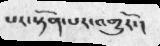པར་སྟོན་པར་འགྱུརོ་།
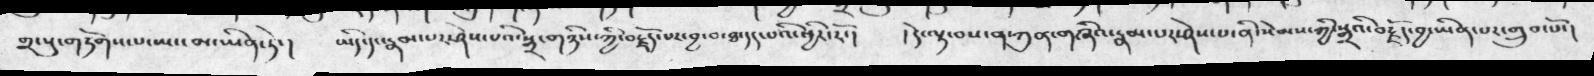༢་སུ་གཏོགས་པ་ཡང་མ་ཡིན་ཏེ་།  ཡིད་དང་རྣམ་པར་ཤེས་པའི་སྒྲ་གཉིས་ཀྱི་བརྗོད་པར་བྱ་བ་ཐ་དད་པའི་ཕྱིར་རོ་།  ། དེ་ལྟ་བས་ན་ཀུན་གཞིའ་རྣམ་པར་ཤེས་པ་ནི་སེམས་ཀྱི་སྒྲའི་བརྗོད་བྱ་ཡིན་པར་གྲུབ་པོ་།
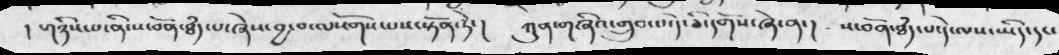། གཉིས་པ་ནི་ས་བོན་ཐཾད་པ་ཞེས་བྱ་བ་ལསོགས་པས་སྟོན་ཏེ་།  ཀུན་གཞིའ་གྲུབ་པ་དེ་ཅི་དགོས་ཞེ་ན་།   ས་བོན་ཐཾད་པ་དེ་ལས་ཡིད་དང་
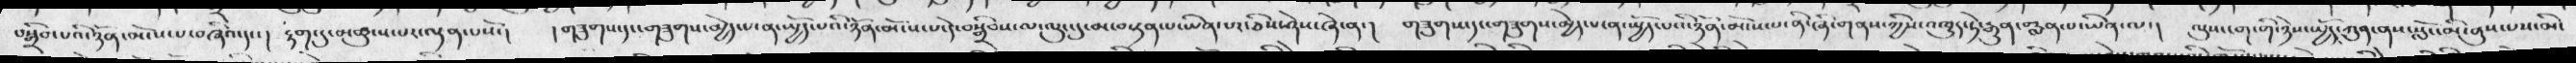བསྒྲིབ་པའི་ཉོན་མོངས་པ་བཞིའ་དང་། རྟག་དུ་མཚུངས་པར་ལྡན་པསོ་།    ། གཟུགས་དང་གཟུགས་མྱེད་པ་ན་སྤྱོད་པའི་ཉོན་མོངས་པ་དེ་བསྒྲིབས་ལ་ལུང་དུ་མ་བསྟན་པ་ཡིན་པར་ཅིས་ཤེས་ཞེ་ན་།  གཟུགས་དང་གཟུགས་མྱེད་པ་ན་སྤྱོད་པའི་ཉོན་མོངས་པ་ནི་ཞི་གནས་ཀྱིས་འཁྱུར་ཏེ་རྒུན་བརླན་པ་ཡིན་ལ་།     ལུས་ངག་གི་ཉེས་སྤྱོད་ཀུན་ནས་སློང་མི་ནུས་པས་མི་
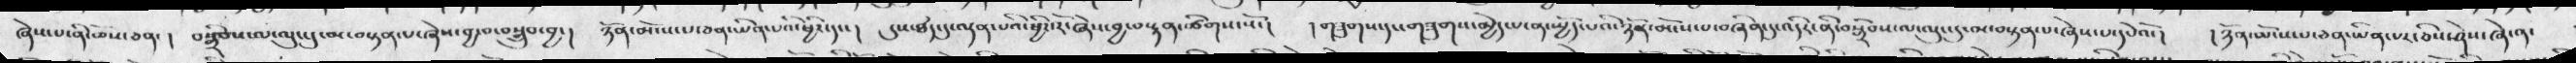ཞེས་པ་ནི་ཆོས་ཅན་ །  བསྒྲིབས་ལ་ལུང་དུ་མ་བསྟན་པ་ཞེས་བྱ་བ་བསྒྲུབ་བྱ་།  ཉོན་མོངས་པ་ཅན་ཡིན་པའི་ཕྱིར་དང་།  དུས་ཐཾད་དུ་ལྡན་པའི་ཕྱིར་རོ་ཞེས་བྱ་བ་སྙན་ཚིགས་སོ་།   ། གཟུགས་དང་གཟུགས་མྱེད་པ་ན་སྤྱོད་པའི་ཉོན་མོངས་པ་བཞིན་དུ་འདིར་ནི་བསྒྲིབས་ལ་ལུང་དུ་མ་བསྟན་པ་ཞེས་པ་དཔེའོ་།  ། ཉོན་མོངས་པ་ཅན་ཡིན་པར་ཅིས་ཤེས་ཞེ་ན་
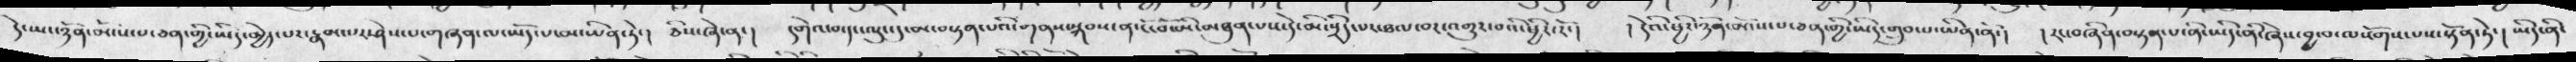དེ་ཡང་ཉོན་མོངས་པ་ཅན་གྱི་ཡིད་མྱེད་པར་རྣམ་པར་ཤེས་པ་གཞན་ལ་ཡོད་པ་མ་ཡིན་ཏེ་།  ཅིས་ཞེ་ན་།  དགེའ་བ་དང་ལུང་དུ་མ་བསྟན་པའི་གནས་སྐབས་ན་ངོ་བོ་མི་མཐུན་པས་དེ་མི་སྲིད་པར་ཐལ་བར་འགྱུར་བའི་ཕྱིར་རོ་།   ། དེའི་ཕྱིར་ཉོན་མོངས་པ་ཅན་གྱི་ཡིད་གྲུབ་པ་ཡིན་ནོ་།   ། རང་བཞིན་བསྟན་པ་ནི་ཡིད་ནི་ཞེས་བྱ་བ་ལསོགས་པས་སྟོན་ཏེ་།  ཡིད་ནི་
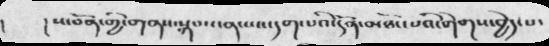། ས་བོན་གྱི་གནས་སྐབས་ན་ཡང་དག་པའི་དོན་མཐོང་པའི་གེགས་བྱེད་པ་
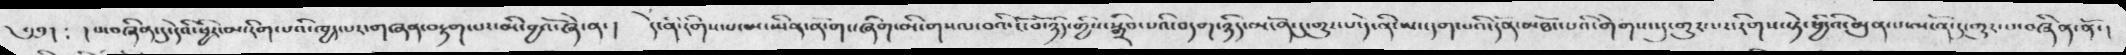༄༅།  ༴  ། པ་བཞིན་དུ་དེའི་ཕྱིར་མ་རིག་པའི་ཁྱད་པར་གཞན་བརྟག་པར་མི་བྱའོ་ཞེ་ན་ །    དེ་ནི་རིགས་པ་མ་ཡིན་ནོ་གང་ཞིག་མི་གསལ་བའི་ངོ་བོ་ཉིད་གྱིས་སྒྲིབ་པའི་བདག་ཉིད་མངོན་དུ་གྱུར་པ་དེ་ནི་ཡང་དག་པའི་དོན་མཐོང་པའི་གེགས་སུ་གྱུར་པར་རིགས་སྟེ་ཕྱི་འི་མུན་པ་མངོན་དུ་གྱུར་པ་བཞིན་ནོ་།
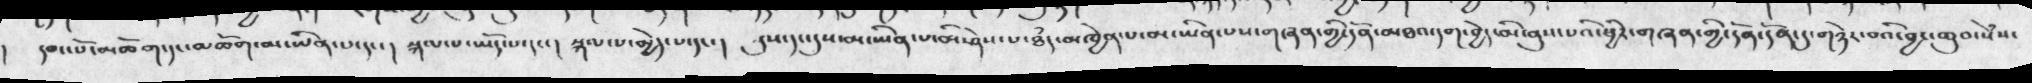། དབང་པོ་མཆོག་དང་མཆོག་མ་ཡིན་པ་དང་།  སྐལ་པ་ཡོད་པ་དང་།  སྐལ་པ་མྱེད་པ་དང་།   དུས་དང་དུས་མ་ཡིན་པ་མི་ཤེས་པ་ཐཾད་མཁྱེན་པ་མ་ཡིན་པས་གཞན་གྱི་དོན་མཐའ་དག་བྱེད་མི་ནུས་པའི་ཕྱིར་གཞན་གྱི་དོན་དོན་དུ་གཉེར་བའི་བྱང་ཆུབ་སེཾས་
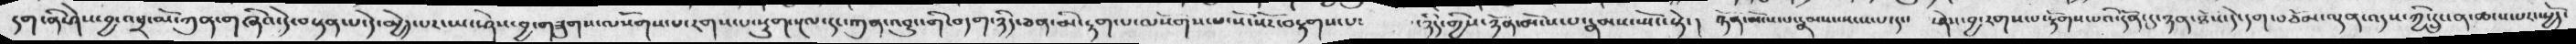དག་ནི་ཤེས་བྱ་འཕྲ་མོ་ཀུན་གཞིའ་དེ་བསྟན་པ་ད་ེམྱེད་པར་ཡང་ཤེས་བྱ་གཟུགས་ལསོགས་པ་རགས་པ་སྡུག་སྔལ་དང་ཀུན་འབྱུང་གི་བདག་ཉིད་ཅན་མི་རྟག་པ་ལསོགས་པ་སོ་སོར་བརྟགས་པ༴  ཉིད་གྱིས་ཉོན་མོངས་པ་རྣམས་སྤོང་སྟེ་།   ཉོན་མོངས་པ་རྣམས་སངས་པ་དང་།  ཤེས་བྱ་རགས་པ་རྟོགས་པའི་དོན་དུ་ཉན་ཐོས་དེ་དག་བཅོམ་ལྡན་འདས་ཀྱི་དྲུང་ན་ཚངས་པར་སྤྱོད་
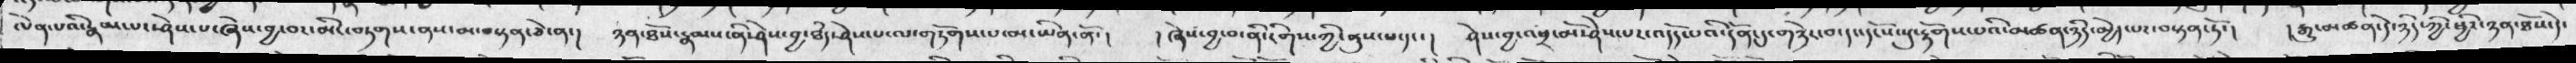ལེན་པའི་རྣམ་པར་ཤེས་པ་ཞེས་བྱ་བར་མིང་བཏགས་ནས་མ་བསྟན་ཅེ་ན་། ཉན་ཐོས་རྣམས་ནི་ཤེས་བྱ་ཐཾད་ཤེས་པ་ལ་གཏོགས་པ་མ་ཡིན་ནོ་།  ། ཞེས་བྱ་བ་ནི་རིགས་ཀྱི་ནུས་པ་དང་།  ཤེས་བྱ་འཕྲ་མོ་ཤེས་པར་འདོད་པའི་དོན་དུ་གཉེར་བ་དང་དངོས་སུ་རྟོགས་པའི་མཚན་ཉིད་མྱེད་པར་བསྟན་དོ་།   ། རྒྱུ་མཚན་དེ་ཉིད་ཀྱི་ཕྱིར་ཉན་ཐོས་དེ་
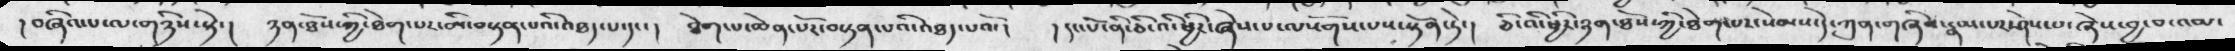། བཞིའ་པ་ལ་གཉིས་སྟེ་།  ཉན་ཐོས་ཀྱི་ཐེག་པར་མི་བསྟན་པའི་འཐད་པ་དང་།   ཐེག་པ་ཆེན་པོར་བསྟན་པའི་འཐད་པའོ་།   ། དང་པོ་ནི་ཅི་འི་ཕྱིར་ཞེས་པ་ལསོགས་པས་སྟོན་ཏེ་།  ཅི་འི་ཕྱིར་ཉན་ཐོས་ཀྱི་ཐེག་པར་སེམས་དེ་ཀུན་གཞིས་རྣམ་པར་ཤེས་པ་ཞེས་བྱ་བ་འམ་
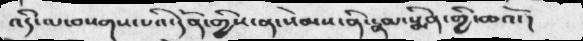འདི་མ་བསགས་པའི་དོན་གྱིས་ན་སེམས་ནི་རྣམ་སྨིན་གྱི་ཆའོ་།
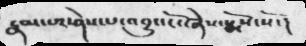རྣམ་པར་ཤེས་པ་འབྱུང་ངོ་ཞེས་སྨོས་སོ་།
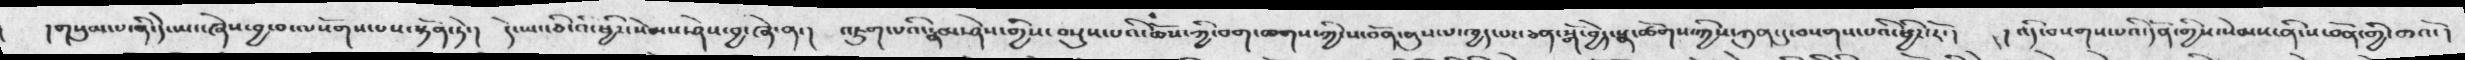།གསུམ་པ་ནི་དེ་ཡང་ཞེས་བྱ་བ་ལསོགས་པས་སྟོན་ཏེ་།  དེ་ཡང་ཅི་འི་ཕྱིར་སེམས་ཤེས་བྱ་ཞེ་ན་།  འཇུག་པའི་རྣམ་ཤེས་གྱིས་བསྡུས་པའི་ཆོས་ཀྱི་བག་ཆགས་ཀྱི་ས་བོན་ནུས་པ་ཁྱད་པར་ཅན་སྒོ་བྱེད་སྣ་ཚོགས་ཀྱིས་ཀུན་དུ་བསགས་པའི་ཕྱིར་རོ་།   ། འདི་བསགས་པའི་དོན་གྱིས་སེམས་ནི་ས་བོན་གྱི་ཆའོ་།
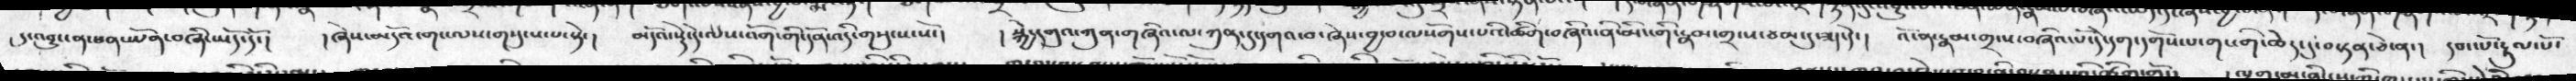དུ་འབྱུང་ན་ཕན་ཡོན་བཞི་ཡོད་དོ་།  །ཞེས་མདོའ་གང་ལས་གསུངས་པ་སྟེ་།  མདོའ་སྡེ་དེ་ལས་འོག་གི་དོན་འདི་གསུངས་སོ་།  སྐྱེ་དགུའ་ཀུན་གཞིའ་ལ་ཀུན་དུ་དགའ་བ་ཞེས་བྱ་བ་ལསོགས་པའི་ཚིག་བཞིའ་ནི་མིང་གི་རྣམ་གྲངས་ཙམ་དུ་ཟད་དེ་།   འོ་ན་རྣམ་གྲངས་བཞིའ་པོ་དེ་དག་དགོས་པ་གང་གི་ཆེད་དུ་བསྟན་ཅེ་ན་།་  དབང་པོ་རྟུལ་པོ་
